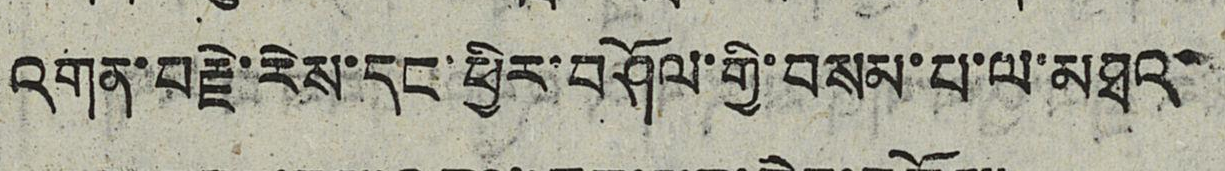འགན་བརྗེ་རེས་དང་ཕྱིར་བཤོལ་གྱི་བསམ་པ་ལ་མཐའ་
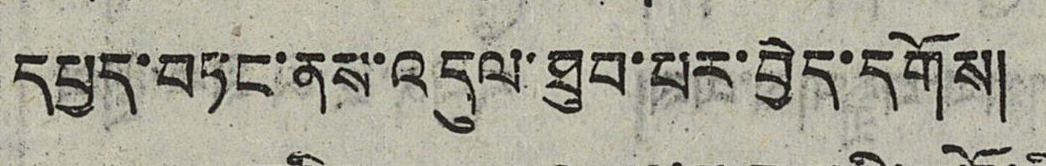དཔྱད་བཏང་ནས་འདུལ་ཐུབ་པར་བྱེད་དགོས།
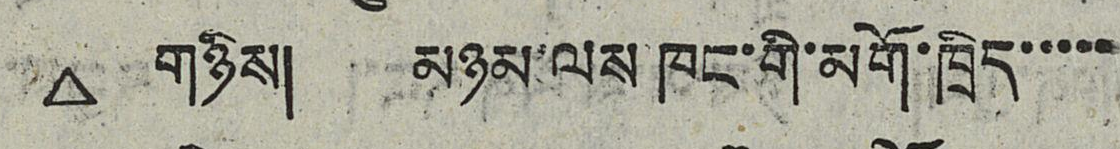△ གཉིས། མཉམ་ལས་ཁང་གི་མགོ་ཁྲིད་་་་་
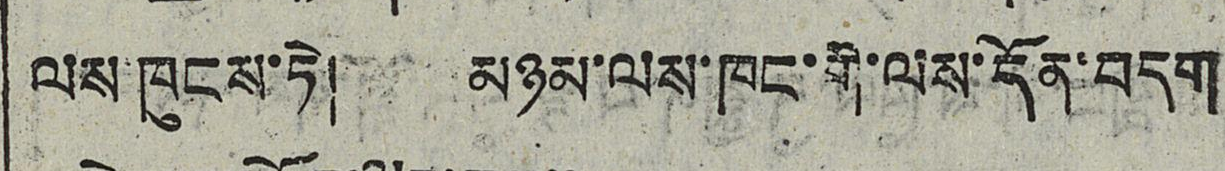ལས་ཁུངས་ཏེ། མཉམ་ལས་ཁང་གི་ལས་དོན་བདག
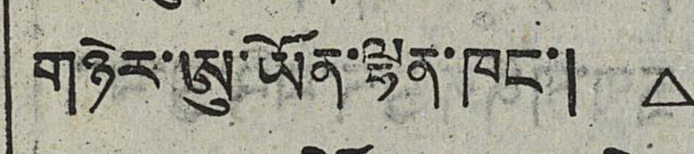གཉེར་ཨུ་ཡོན་ལྷན་ཁང་། △
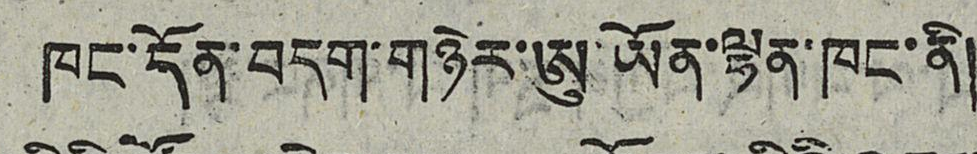ཁང་དོན་བདག་གཉེར་ཨུ་ཡོན་ལྷན་ཁང་ནི།
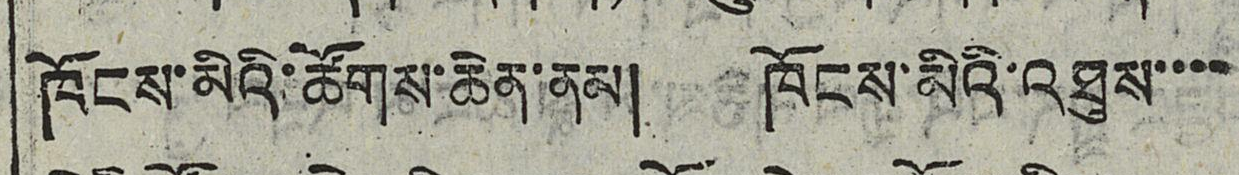ཁོངས་མིའི་ཚོགས་ཆེན་ནམ། ཁོངས་མིའི་འཐུས་་་་
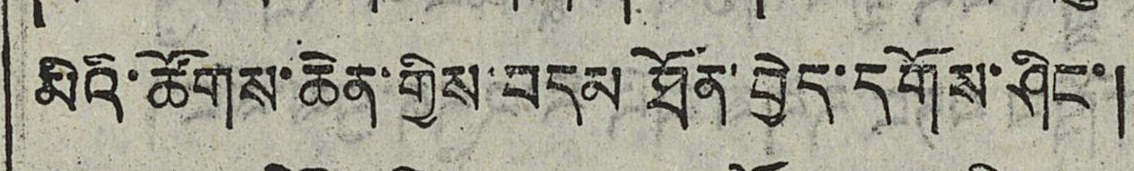མིའི་ཚོགས་ཆེན་གྱིས་བདམ་ཐོན་བྱེད་དགོས་ཤིང་།
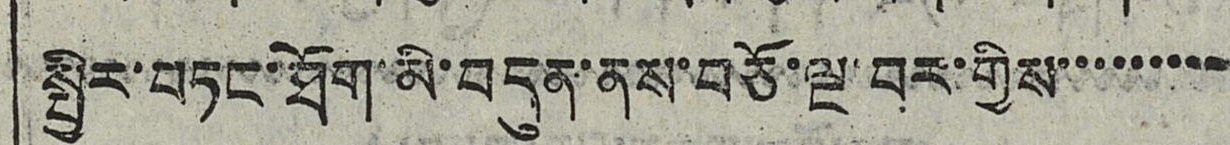སྤྱིར་བཏང་ཐོག་མི་བདུན་ནས་བཅོ་ལྔ་བར་གྱིས་་་་་་་་་
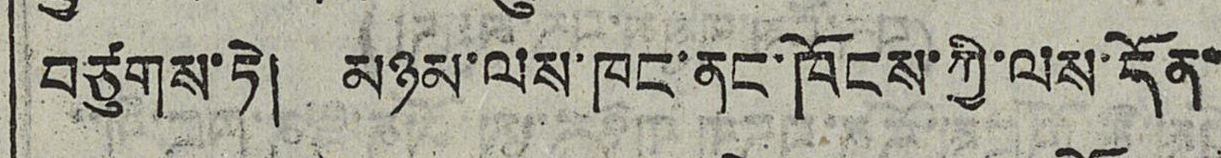བཙུགས་ཏེ། མཉམ་ལས་ཁང་ནང་ཁོངས་ཀྱི་ལས་དོན་
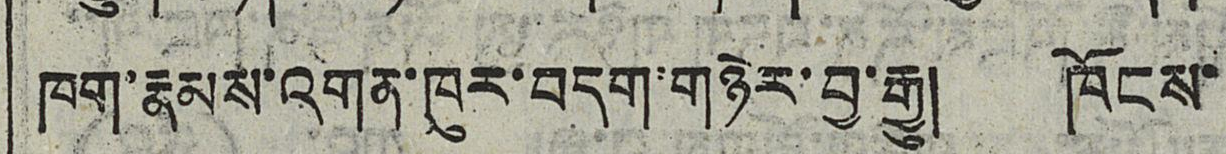ཁག་རྣམས་འགན་ཁུར་བདག་གཉེར་བྱ་རྒྱུ། ཁོངས་
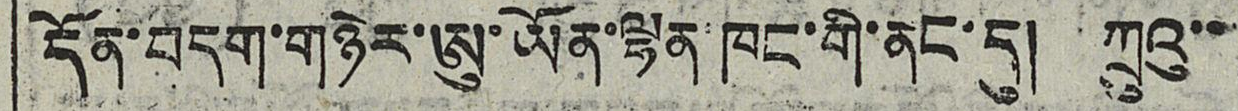དོན་བདག་གཉེར་ཨུ་ཡོན་ལྷན་ཁང་གི་ནང་དུ། ཀྲུའུ་་་
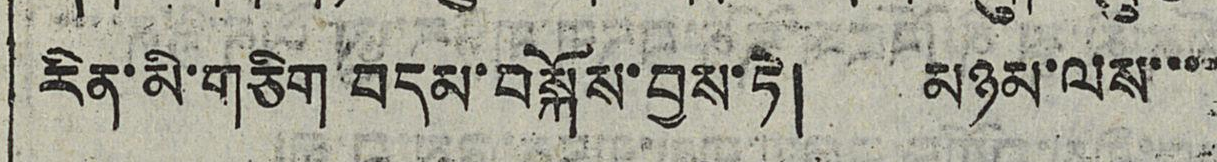རིན་མི་གཅིག་བདམ་བསྐོས་བྱས་ཏེ། མཉམ་ལས་་་
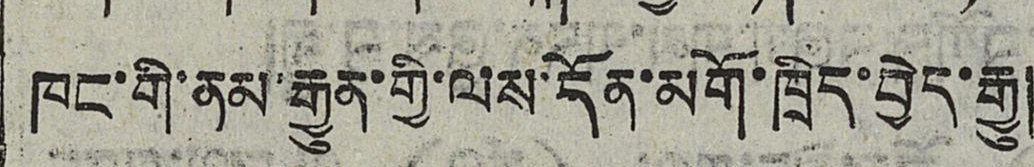ཁང་གི་ནམ་རྒྱུན་གྱི་ལས་དོན་མགོ་ཁྲིད་བྱེད་རྒྱུ།
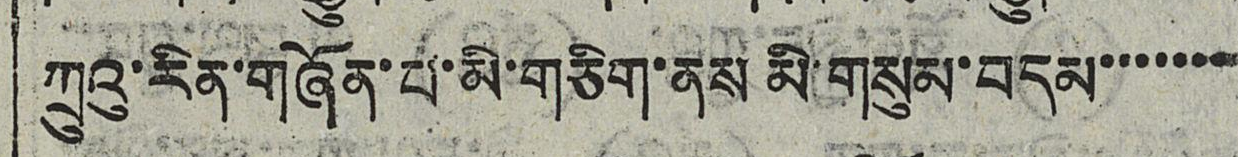ཀྲུའུ་རིན་གཞོན་པ་མི་གཅིག་ནས་མི་གསུམ་བདམ་་་་་་་
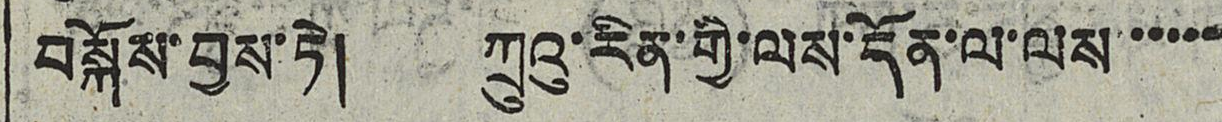བསྐོས་བྱས་ཏེ། ཀྲུའུ་རིན་གྱི་ལས་དོན་ལ་ལས་་་་་་
